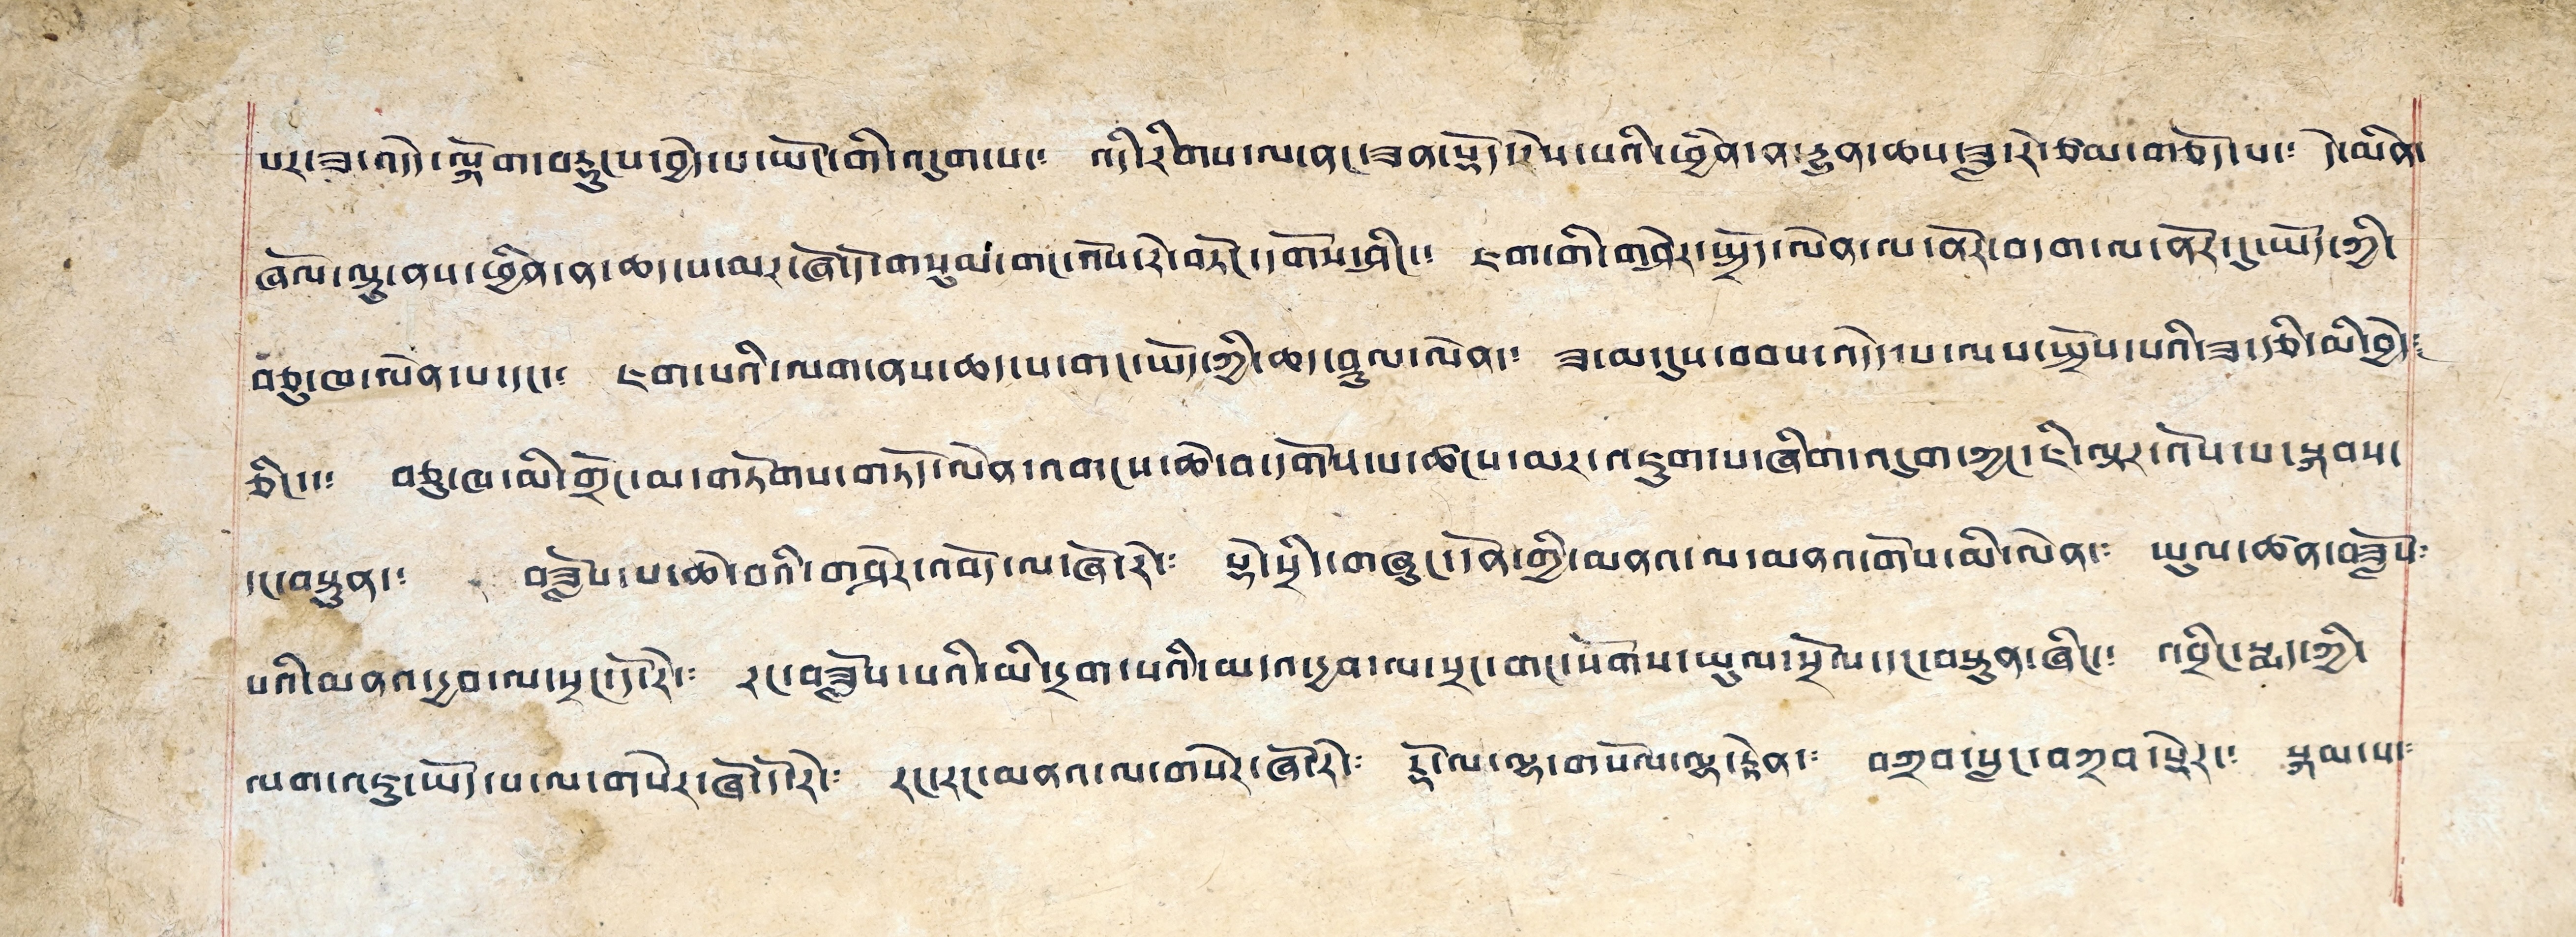པར་ཟ་འདེད་ལྐོག་བརྡུངས་བྱེད་པ་ཡོང་གི་འདུག་པ་༴ འདི་རིགས་ལ་ནང་ཟན་སྡོད་རེས་པའི་ཕྱིན་ན་རྒྱུན་ཆས་ཟླ་རེ་ཙམ་གཅོད་པ་༴ དེ་མིན་
ཞོལ་ལྟུ་ནས་ཕྱིན་ན་ཆད་པ་མར་ཞོ་དོ་གསུམ་གང་འོས་རེ་བཏོང་དགོས་ཤིང་༴ ཇག་གི་གཤེར་སྤྲོད་ལེན་ལ་ནོར་བདག་ལ་ནོར་དུ་ཡོད་ཀྱི་
བཅུ་ཁ་ལེན་པ་དང་༴ ཇག་པའི་ལག་ནས་ཆད་པ་གང་ཡོད་ཀྱི་ཆད་བྲུལ་ལེན་༴ ཟ་མ་དུས་བབས་འདེད་པ་ལས་སྤྲོས་པའི་ཟ་རྩི་མི་བྱེད༴
ཅིང་༴ བཅུ་ཁ་མི་གྲོང་མ་གཏོགས་གཏོད་ལེན་འགངས་ཆེ་དགོས་པ་ཚངས་མར་འཇུག་པ་ཞིག་འདུག་ཀྱང་ཇི་ལྟར་འོས་པ་སྐབས་
དང་བསྟུན་༴ བཟློས་པ་ཆེ་བའི་གཤེར་འབོད་ལ་ཞོ་རེ་༴ སྡེ་སྲིད་གཞུང་དོན་གྱི་མནའ་ལ་མནའ་དགོས་མི་ལེན་༴ ཡུལ་ཚན་བཟློས༴
པའི་མནའ་དྱབ་ལ་སྲང་དོ་རེ་༴ རང་བཟློས་པའི་མི་དྲག་པའི་མདའ་དྱབ་ལ་སྲང་གང་སོགས་ཡུལ་སྲོལ་དང་བསྟུན་ཞིང་༴ འབྲིང་རྨད་ཀྱི་
ལག་འཇུ་ཡོད་པ་ལ་གསེར་ཞོ་དོ་རེ་༴ རང་རང་མནའ་ལ་གསེར་ཞོ་རེ་༴ རྡོ་ལ་ལྷ་གསོལ་ལྷ་རྟེན་༴ བཀྲབ་སླང་བཀྲབ་སྡེར་༴ སྐམ་པ་༴
